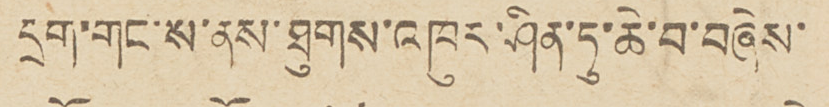དྲག་གང་ས་ནས་ཐུགས་འཁུར་ཤིན་ཏུ་ཆེ་བ་བཞེས་
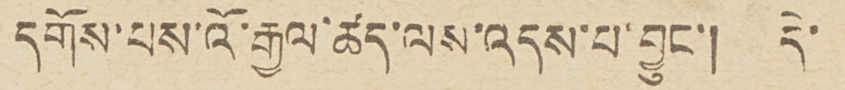དགོས་པས་འོ་རྒྱལ་ཚད་ལས་འདས་པ་བྱུང་། དེ་
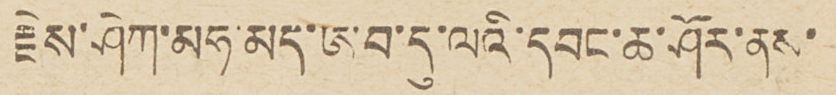རྗེས་ཤེཀ་མཧ་མད་ཨབ་དུ་ལའི་དབང་ཆ་ཤོར་ནས་
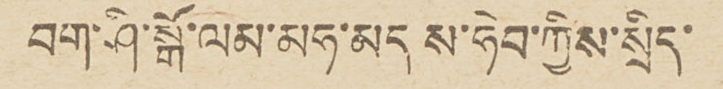བག་ཤི་སྒོ་ལམ་མཧ་མད ས་ཧེབ་ཀྱིས་སྲིད་
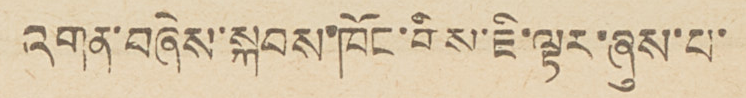འགན་བཞེས་སྐབས་ཁོང་གིས་ཇི་ལྟར་ཞུས་པ་
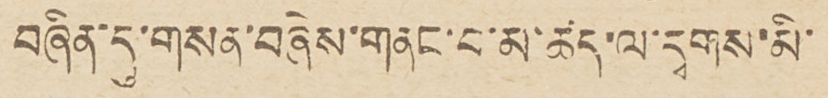བཞིན་དུ་གསན་བཞེས་གནང་བ་མ་ཚད་ལ་དྭགས་མི་
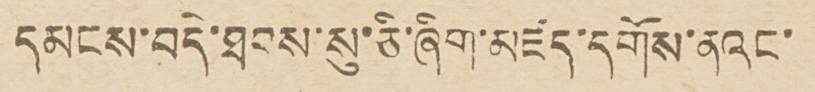དམངས་བདེ་ཐབས་སུ་ཅི་ཞིག་མཛད་དགོས་ནའང་
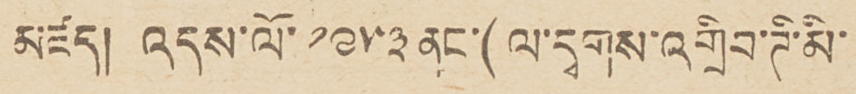མཛད། འདས་ལོ་ ༡༩༥༣ ནང་(ལ་དྭགས་འགྲིབ་ཊི་མི་
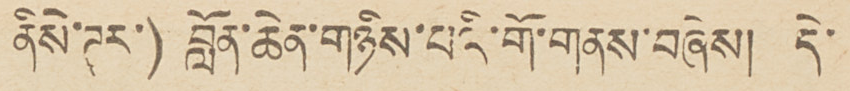ནིསེ་ཊར་) བློན་ཆེན་གཉིས་པའི་གོ་གནས་བཞེས། དེ་
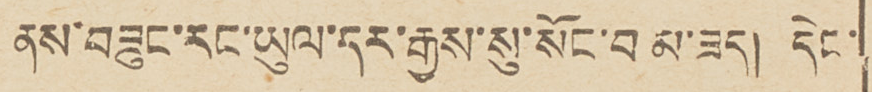ནས་བཟུང་རང་ཡུལ་དར་རྒྱས་སུ་སོང་བ མ་ཟད། དེང་
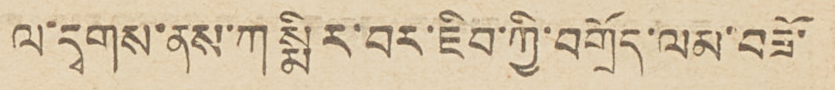ལ་དྭགས་ནས་ཀསྨིར་བར་ཇིབ་ཀྱི་བགྲོད་ལམ་བཟོ་
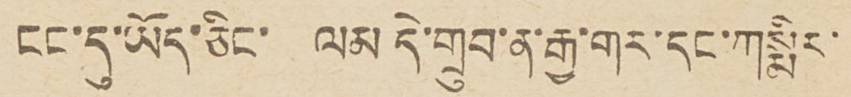ངང་དུ་ཡོད་ཅིང་ ལམ དེ་གྲུབ་ན་རྒྱ་གར་དང་ཀསྨིར་
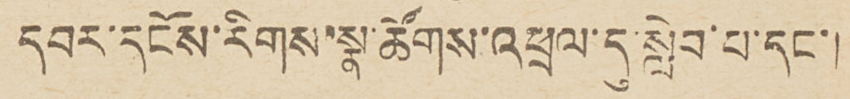དབར་དངོས་རིགས་སྣ་ཚོགས་འཕྲལ་དུ་སླེབ་པ་དང་།
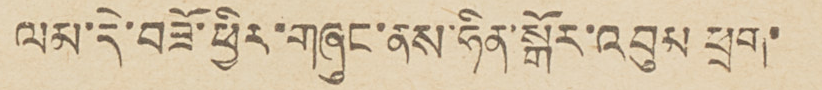ལམ་དེ་བཟོ་ཕྱིར་གཞུང་ནས་ཧིན་སྒོར་འབུམ ཕྲག་
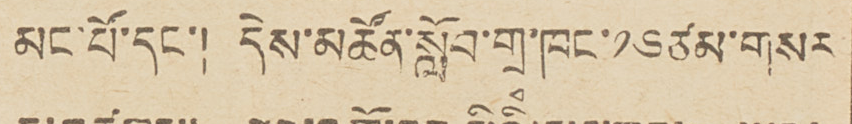མང་པོ་དང་། དེས་མཚོན་སློབ་གྲྭ་ཁང་ ༡༦ ཙམ་གསར
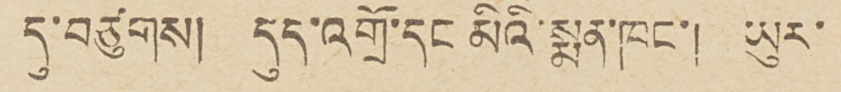དུ་བཙུགས། དུད་འགྲོ་དང མིའི་སྨན་ཁང་། ཡུར་
